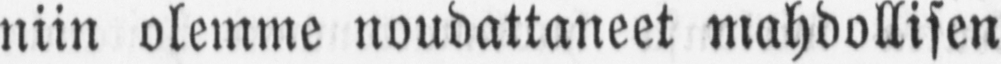niin olemme noudattaneet mahdollisen
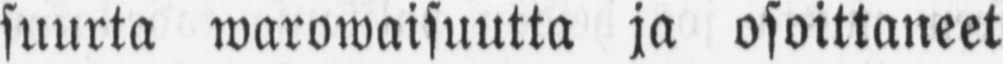suurta warowaisuutta ja osoittaneet
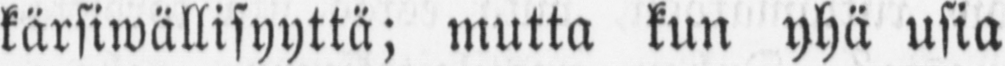kärsiwällisyyttä; mutta kun yhä usia
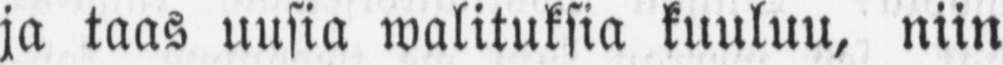ja taas uusia walituksia kuuluu, niin
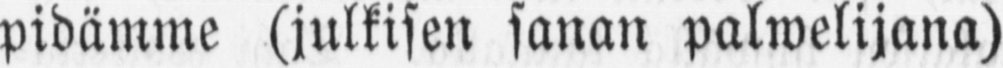pidämme (julkisen sanan palwelijana)
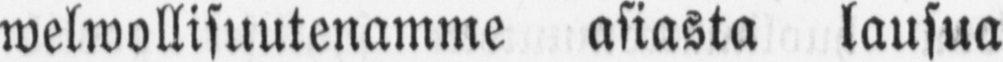welwollisuutenamme asiasta lausua
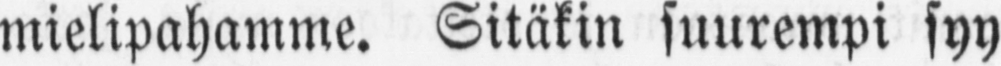mielipahamme. Sitäkin suurempi syy
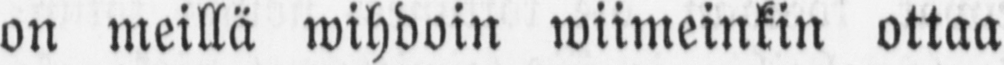on meillä wihdoin wiimeinkin ottaa
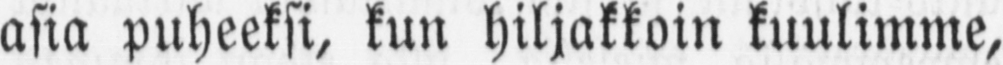asia puheeksi, kun hiljakkoin kuulimme,
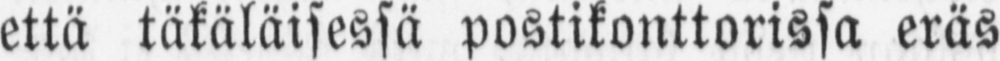että täkäläisessä postikonttorissa eräs
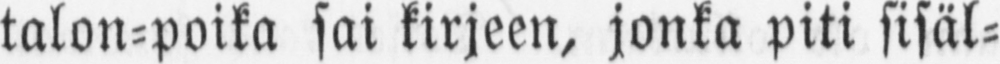talon-poika sai kirjeen, jonka piti sisäl-
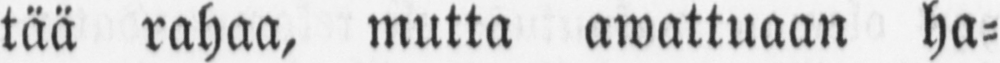tää rahaa, mutta awattuaan ha-
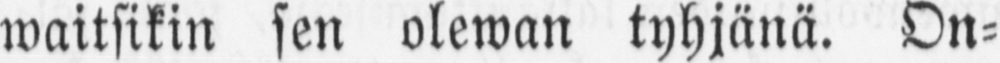waitsikin sen olewan tyhjänä. On-
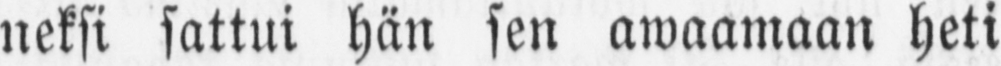neksi sattui hän sen awaamaan heti
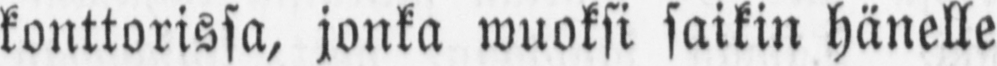konttorissa, jonka wuoksi saikin hänelle
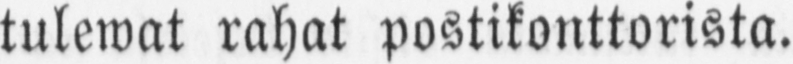tulewat rahat postikonttorista.
